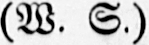(W. S.)
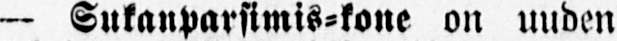— Sukanparsimis-kone on uuden
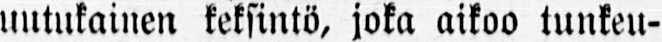uutukainen keksintö, joka aikoo tunkeu-
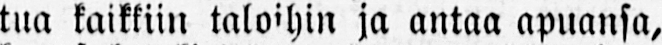tua kaikkiin taloihin ja antaa apuansa,
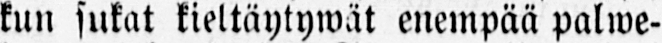kun sukat kieltäytywät enempää palwe-
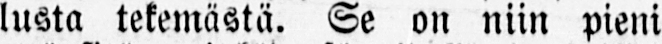lusta tekemästä. Se on niin pieni
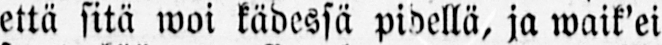että sitä woi kädessä pidellä, ja waik'ei
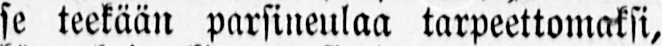se teekään parsineulaa tarpeettomaksi,
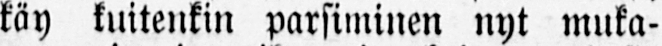käy kuitenkin parsiminen nyt muka-
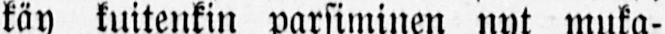wammin ja pikemmin kuin wanhalla
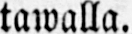tawalla.
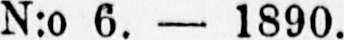N:o 6. — 1890.
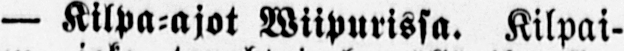— Kilpa-ajot Wiipurissa. Kilpai-
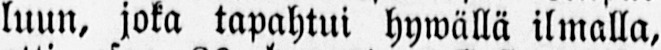luun, joka tapahtui hywällä ilmalla,
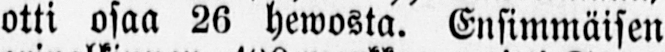otti osaa 26 hewosta. Ensimmäisen
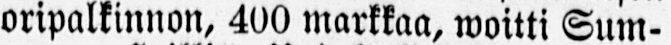oripalkinnon, 400 markkaa, woitti Sum-
